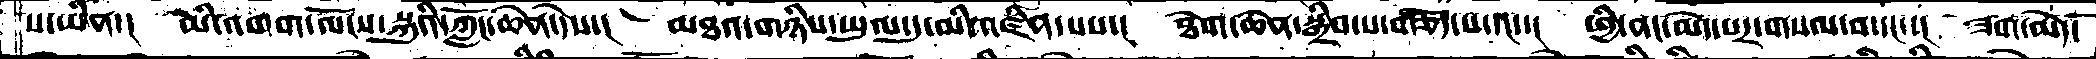པ་ཡིན་།  མི་འགག་ལོངས་སྐུའི་ཀློང་ཆེན་དེས་།  མཐའ་གཉིས་ཡུལ་དུ་མི་འཛིན་པས་།  ཐེག་ཆེན་སྒྲིབ་པ་གཅོད་པ་དང་་།  ཕྱི་ནང་མེད་པར་གསལ་བ་དང་་།  ཟག་མེད་
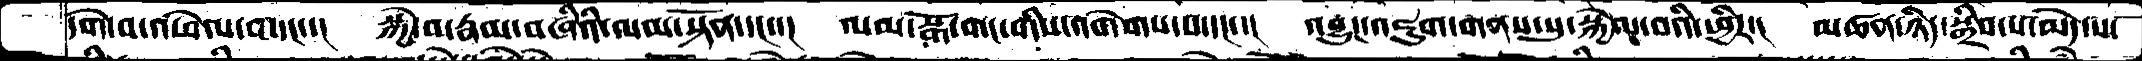དགེ་བ་འཕེལ་བ་དང་་།  སྐྱེ་བ་རྣམ་བཞིའི་ལམ་སྟོན་དང་་།  ལམ་སྒོ་གང་གིས་འགེགས་པ་དང་་།  འབྱུང་འཇུག་གནས་སུ་སྐྱེལ་བའི་ཕྱིར་།  མཚན་ཉིད་སྒྲིབ་པ་མེད་པ་
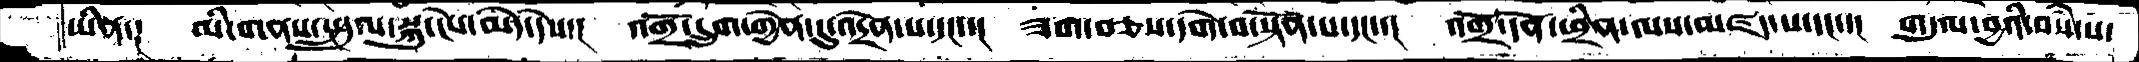ཡིན༑  མི་གནས་སྤྲུལ་སྐུ་ངེས་མེད་དེས་།  འགྲོ་དྲུག་གྱེན་དུ་འདྲེན་པ་དང་་།  ཟག་བཅས་དགེ་བ་སྟོན་པ་དང་་།  འགྲོ་དོན་ཕྲིན་ལས་མཛད་པ་དང་་། གདུལ་བྱའི་བསཾ་པ་
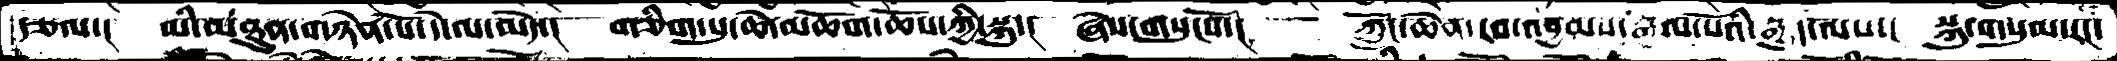རྩལ་།  མི་མཐུན་གཉེན་པོ་དེ་ལ་མེད་།  གཅིག་པུ་ཆེ་མཆོག་ཆོས་ཀྱི་སྐུ་།  ཞེས་གསུངསོ་།  ཀློང་ཆེན་རབ་འབྱམས་རྒྱལ་པོའི་རྒྱུད་ལས་།  སྐུ་གསུམ་རང་
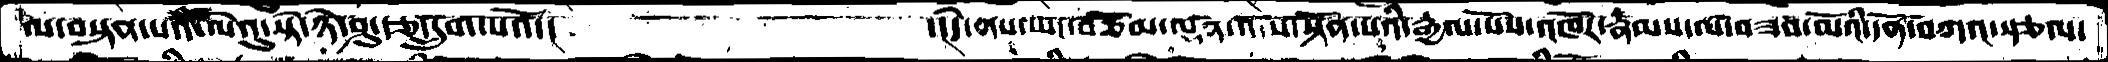ལ་བསྟན་པའི་ལེའུ་སྟེ་ཉེ་ཤུ་རྩ་དྲུག་པའོ་།       ་།དེ་ནས་ཡང་བཅོམ་ལྡན་འདས་སྟོན་པའི་རྒྱལ་པོས་འཁོར་རྣམས་ལ་བཟབ་མོའི་དོན་བཀའ་སྩལ་
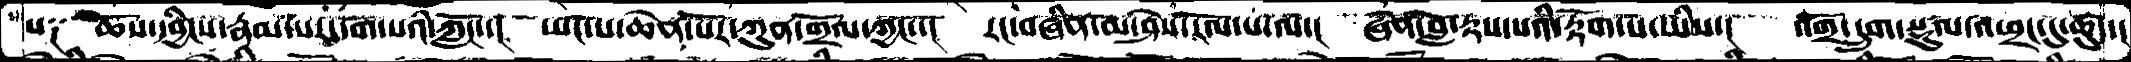པ༑   ཆོས་དབྱིངས་རྣམ་པར་དག་པའི་ཀློང་་།  ཡང་པ་ཆེན་པོར་ཀུན་གྲོལ་ཀྱང་་།  རང་བཞིན་མ་ཤེས་རོལ་པ་ལ་།   ཞེན་བློ་རྟས་པའི་རྟོག་པ་ཡིས་།  འགྲོ་དྲུག་སྡུལ་འཕྲང་དུ་ཚུད་།
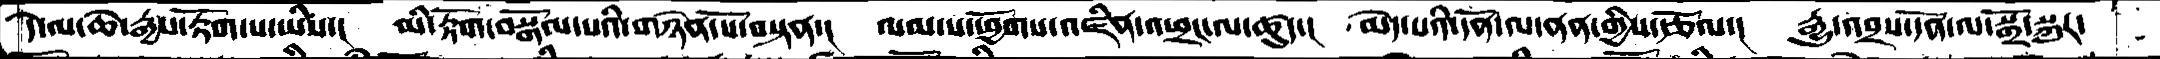དེ་ལ་ཆེ་རྒྱས་རྟོག་པ་ཡིས་།  མི་རྟོག་བསྒོལ་པའི་གཉེན་པོ་བསྟན་།  ལམ་པ་ཕྱོགས་འཛིན་འཕྲང་ལ་ཚུད་།  མེད་པའི་དོན་ལ་ནན་གྱིས་རྩོལ་།  རྒྱུ་འབྲས་དོན་ལ་སྒྲོ་སྐུར་
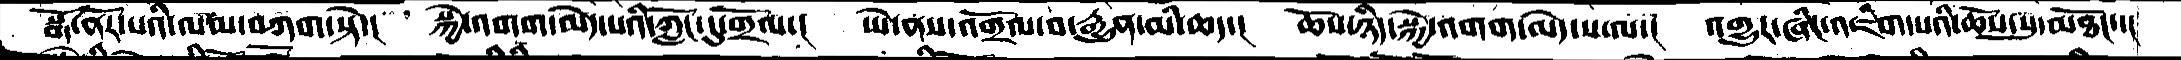སྒོ་ནོར་པའི་ལམ་བཀག་སྟེ་།  སྐྱེ་འགག་མེད་པའི་ཀློང་དུ་གྲོལ་།  ཡེ་ནས་འགྲོལ་བ་རྒྱུན་མི་ཆད་།  ཆོས་ཉིད་སྐྱེ་འགག་མེད་པ་་ལ་།  འགྱུར་ཞིང་འཇིག་པའི་ཆོས་སུ་མཐོང་་།
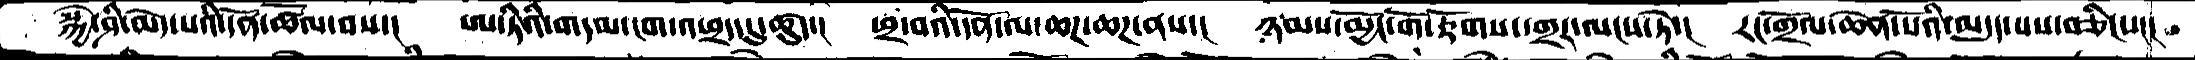སྐྱེ་ཤི་མེད་པའི་དོན་ཚོལ་བས་།   ཨ་ཏིའི་གདམ་ངག་འཕྲད་དུ་ཚུད་།   ཕྲ་བའི་དོན་ལ་ཆཌ་ཆཌ་ནས་།   ཉམས་མྱོང་གོ་རྟོགས་དགྲར་ལངས་ཏེ་།   རང་གྲོལ་ཆེན་པོའི་མདུད་པས་བཅིངས།།།
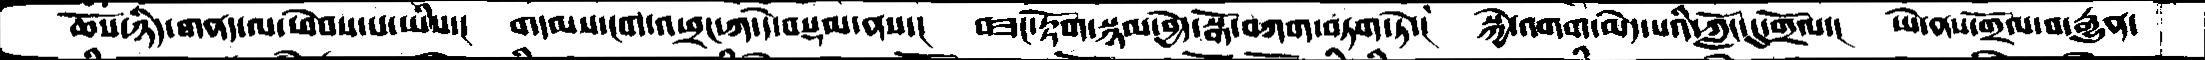ཆོས་ཉིད་གནད་ལ་ཕེབས་པ་ཡིས་།   གདམས་ངག་འཕྲང་ཀ་དེ་བསྡམ་ནས་།   བཟང་རྟོག་སྙམ་བྱེད་སྒོ་བཀག་བཏག་ཏེ་།   སྐྱེ་འགག་མེད་པའི་ཀློང་དུ་གྲོལ་།   ཡེ་ནས་གྲོལ་བ་རྒྱུན་
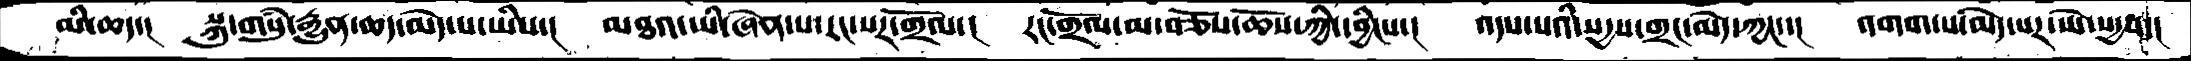མི་ཆད་།།   སྐུ་གསུཾ་རྒྱུན་ཆད་མེད་པ་ཡིས་།   མཐའ་ཡི་ཞེན་པ་རང་སར་གྲོལ་།   རང་གྲོལ་མ་བཅོས་ཆོས་ཀྱི་དབྱིངས་།   འདས་པའི་སདྱས་གྲང་མེད་ཀྱང་་།   འགག་པ་མེད་པར་ཡེ་སདྱས་།
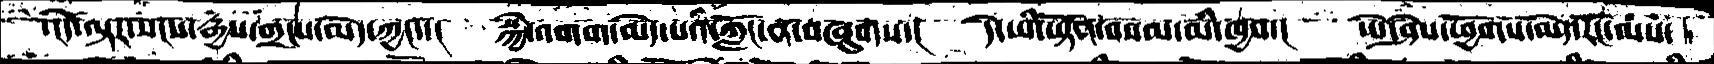་།དེ་ལྟར་སངས་རྒྱས་གྲངས་མེད་ཀྱང་་།    སྐྱེ་འགག་མེད་པའི་ཀློང་ན་བཞུགས་།    དེ་ཡི་ཡྟོན་བསམ་མི་ཁྱབ་།    ཡེ་ཤེས་ཕྱོགས་མེད་རང་ལས་
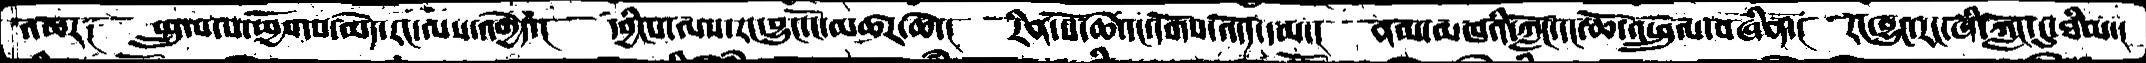འཆར༑   སྤྲུལ་པ་ཕྱོགས་མེད་རང་ལས་འགྱེད་།  དབྱིངས་ལས་རང་བྱུང་ངོ་མཚར་ཆེ་།།  རིན་པོ་ཆེ་དང་དགོས་འདོད་དམ་།   ནམ་མཁའི་ཀློང་དང་ཆོ་འཕྲུལ་བཞིན་།   རང་བྱུང་རང་ཞི་ཀློང་དུ་ཐིམ་།
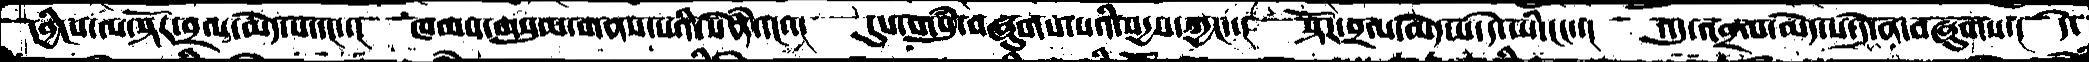དབྱིངས་ལ་སྟོར་བྲལ་མེད་པ་དང་་།  ཁམས་གསུམ་གནས་པའི་སེཾན་དང་་།  དུས་གསུཾ་བཞུགས་པའི་སདྱས་ཀྱང་་།  སྟོར་བྲལ་མེད་པ་དེ་ཡི་ངང་་།  འདུ་འབྲལ་མེད་པ་དེ་ན་བཞུགས་།  དེ་
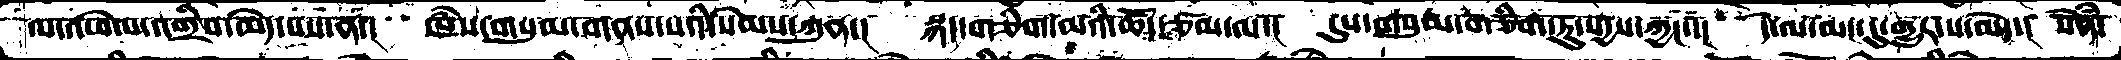ལ་འཕེལ་འགྲིབ་མེད་པས་ན་།  ཁཾས་གསུམ་གནས་པའི་སེམས་ཀུན་།  སྐད་གཅིག་མའི་ཚོད་ཙམ་ལ་།  དུས་གསུམ་གཅིག་ཏུ་སདྱས་ཀྱང་་།  དེ་ལ་མང་དུ་གྱུར་པ་མེད་།  སེཾན་
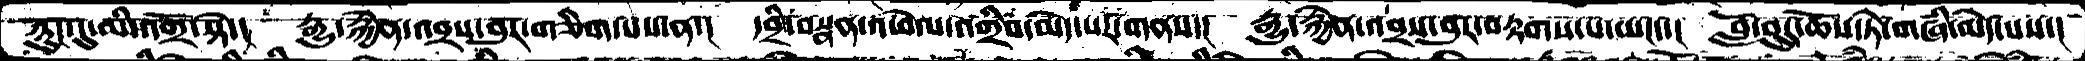ཉུང་དུ་མི་འགྲོ་སྟེ་།  རྒྱུ་རྐྱེན་འབྲས་བུར་གཅིག་པས་ན་།  དབྲི་བསྣན་འཕེལ་འགྲིབ་མེད་པར་གནས་།  རྒྱུ་རྐྱེན་འབྲས་བུར་བརྟགས་པ་ཡང་་།  བློ་བུར་ཆོས་ཏེ་གཞི་མེད་པས་།
